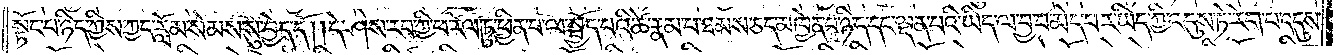སྟོང་པ་ཉིད་ཀྱིས་ཀྱང་རློམ་སེམས་སུ་བྱེད་དོ། །དེ་ཤེས་རབ་ཀྱི་ཕ་རོལ་ཏུ་ཕྱིན་པ་ལ་སྤྱོད་པའི་ཚེ་རྣམ་པ་ཐམས་ཅད་མཁྱེན་པ་ཉིད་དང་ལྡན་པའི་ཡིད་ལ་བྱ་བ་མེད་པར་ཡིད་ཀྱི་འདུས་ཏེ་རེག་པ་འདུས་
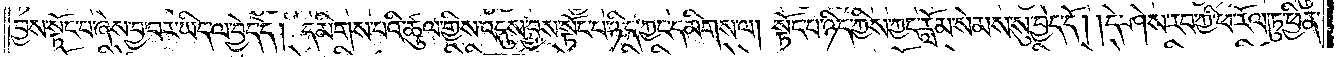བྱས་སྟོང་པ་ཞེས་བྱ་བར་ཡིད་ལ་བྱེད་དེ། དམིགས་པའི་ཚུལ་གྱིས་འདུས་བྱས་སྟོང་པ་ཉིད་ཀྱང་དམིགས་ལ། སྟོང་པ་ཉིད་ཀྱིས་ཀྱང་རློམ་སེམས་སུ་བྱེད་དོ། །དེ་ཤེས་རབ་ཀྱི་ཕ་རོལ་ཏུ་ཕྱིན་
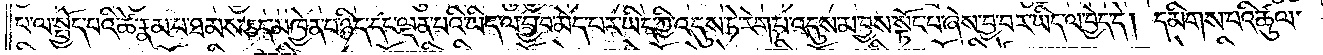པ་ལ་སྤྱོད་པའི་ཚེ་རྣམ་པ་ཐམས་ཅད་མཁྱེན་པ་ཉིད་དང་ལྡན་པའི་ཡིད་ལ་བྱ་བ་མེད་པར་ཡིད་ཀྱི་འདུས་ཏེ་རེག་པ་འདུས་མ་བྱས་སྟོང་པ་ཞེས་བྱ་བར་ཡིད་ལ་བྱེད་དེ། དམིགས་པའི་ཚུལ་
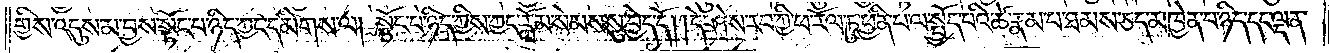གྱིས་འདུས་མ་བྱས་སྟོང་པ་ཉིད་ཀྱང་དམིགས་ལ། སྟོང་པ་ཉིད་ཀྱིས་ཀྱང་རློམ་སེམས་སུ་བྱེད་དོ། །དེ་ཤེས་རབ་ཀྱི་ཕ་རོལ་ཏུ་ཕྱིན་པ་ལ་སྤྱོད་པའི་ཚེ་རྣམ་པ་ཐམས་ཅད་མཁྱེན་པ་ཉིད་དང་ལྡན་
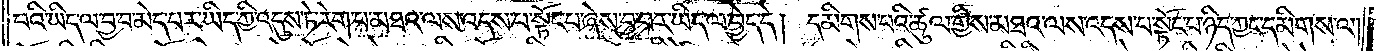པའི་ཡིད་ལ་བྱ་བ་མེད་པར་ཡིད་ཀྱི་འདུས་ཏེ་རེག་པ་མཐའ་ལས་འདས་པ་སྟོང་པ་ཞེས་བྱ་བར་ཡིད་ལ་བྱེད་དེ། དམིགས་པའི་ཚུལ་གྱིས་མཐའ་ལས་འདས་པ་སྟོང་པ་ཉིད་ཀྱང་དམིགས་ལ།
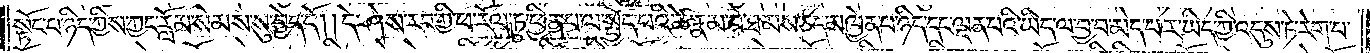སྟོང་པ་ཉིད་ཀྱིས་ཀྱང་རློམ་སེམས་སུ་བྱེད་དོ། །དེ་ཤེས་རབ་ཀྱི་ཕ་རོལ་ཏུ་ཕྱིན་པ་ལ་སྤྱོད་པའི་ཚེ་རྣམ་པ་ཐམས་ཅད་མཁྱེན་པ་ཉིད་དང་ལྡན་པའི་ཡིད་ལ་བྱ་བ་མེད་པར་ཡིད་ཀྱི་འདུས་ཏེ་རེག་པ་
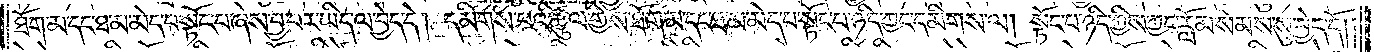ཐོག་མ་དང་ཐ་མ་མེད་པ་སྟོང་པ་ཞེས་བྱ་བར་ཡིད་ལ་བྱེད་དེ། དམིགས་པའི་ཚུལ་གྱིས་ཐོག་མ་དང་ཐ་མ་མེད་པ་སྟོང་པ་ཉིད་ཀྱང་དམིགས་ལ། སྟོང་པ་ཉིད་ཀྱིས་ཀྱང་རློམ་སེམས་སུ་བྱེད་དོ། །
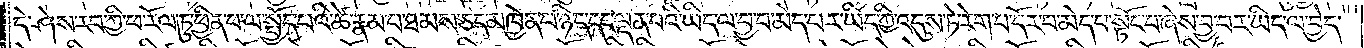དེ་ཤེས་རབ་ཀྱི་ཕ་རོལ་ཏུ་ཕྱིན་པ་ལ་སྤྱོད་པའི་ཚེ་རྣམ་པ་ཐམས་ཅད་མཁྱེན་པ་ཉིད་དང་ལྡན་པའི་ཡིད་ལ་བྱ་བ་མེད་པར་ཡིད་ཀྱི་འདུས་ཏེ་རེག་པ་དོར་བ་མེད་པ་སྟོང་པ་ཞེས་བྱ་བར་ཡིད་ལ་བྱེད་
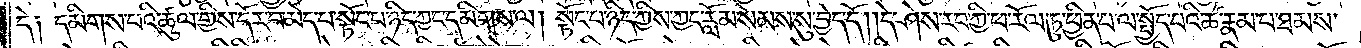དེ༑ དམིགས་པའི་ཚུལ་གྱིས་དོར་བ་མེད་པ་སྟོང་པ་ཉིད་ཀྱང་དམིགས་ལ། སྟོང་པ་ཉིད་ཀྱིས་ཀྱང་རློམ་སེམས་སུ་བྱེད་དོ། །དེ་ཤེས་རབ་ཀྱི་ཕ་རོལ་ཏུ་ཕྱིན་པ་ལ་སྤྱོད་པའི་ཚེ་རྣམ་པ་ཐམས་
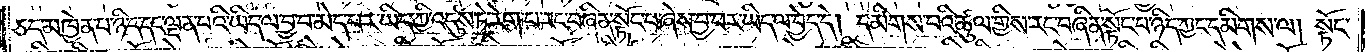ཅད་མཁྱེན་པ་ཉིད་དང་ལྡན་པའི་ཡིད་ལ་བྱ་བ་མེད་པར་ཡིད་ཀྱི་འདུས་ཏེ་རེག་པ་རང་བཞིན་སྟོང་པ་ཞེས་བྱ་བར་ཡིད་ལ་བྱེད་དེ། དམིགས་པའི་ཚུལ་གྱིས་རང་བཞིན་སྟོང་པ་ཉིད་ཀྱང་དམིགས་ལ། སྟོང་
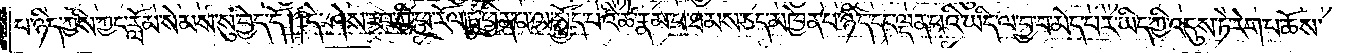པ་ཉིད་ཀྱིས་ཀྱང་རློམ་སེམས་སུ་བྱེད་དོ། །དེ་ཤེས་རབ་ཀྱི་ཕ་རོལ་ཏུ་ཕྱིན་པ་ལ་སྤྱོད་པའི་ཚེ་རྣམ་པ་ཐམས་ཅད་མཁྱེན་པ་ཉིད་དང་ལྡན་པའི་ཡིད་ལ་བྱ་བ་མེད་པར་ཡིད་ཀྱི་འདུས་ཏེ་རེག་པ་ཆོས་
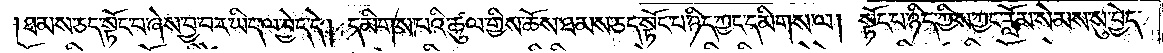ཐམས་ཅད་སྟོང་པ་ཞེས་བྱ་བར་ཡིད་ལ་བྱེད་དེ། དམིགས་པའི་ཚུལ་གྱིས་ཆོས་ཐམས་ཅད་སྟོང་པ་ཉིད་ཀྱང་དམིགས་ལ། སྟོང་པ་ཉིད་ཀྱིས་ཀྱང་རློམ་སེམས་སུ་བྱེད་
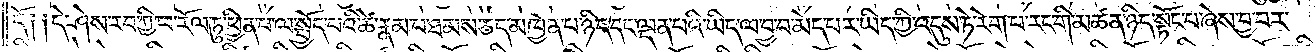དོ༑ ༑དེ་ཤེས་རབ་ཀྱི་ཕ་རོལ་ཏུ་ཕྱིན་པ་ལ་སྤྱོད་པའི་ཚེ་རྣམ་པ་ཐམས་ཅད་མཁྱེན་པ་ཉིད་དང་ལྡན་པའི་ཡིད་ལ་བྱ་བ་མེད་པར་ཡིད་ཀྱི་འདུས་ཏེ་རེག་པ་རང་གི་མཚན་ཉིད་སྟོང་པ་ཞེས་བྱ་བར་
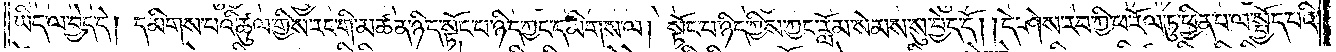ཡིད་ལ་བྱེད་དེ། དམིགས་པའི་ཚུལ་གྱིས་རང་གི་མཚན་ཉིད་སྟོང་པ་ཉིད་ཀྱང་དམིགས་ལ། སྟོང་པ་ཉིད་ཀྱིས་ཀྱང་རློམ་སེམས་སུ་བྱེད་དོ། །དེ་ཤེས་རབ་ཀྱི་ཕ་རོལ་ཏུ་ཕྱིན་པ་ལ་སྤྱོད་པའི་
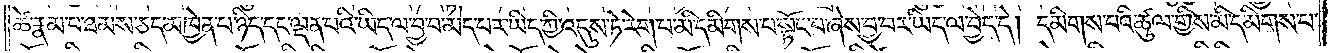ཚེ་རྣམ་པ་ཐམས་ཅད་མཁྱེན་པ་ཉིད་དང་ལྡན་པའི་ཡིད་ལ་བྱ་བ་མེད་པར་ཡིད་ཀྱི་འདུས་ཏེ་རེག་པ་མི་དམིགས་པ་སྟོང་པ་ཞེས་བྱ་བར་ཡིད་ལ་བྱེད་དེ། དམིགས་པའི་ཚུལ་གྱིས་མི་དམིགས་པ་
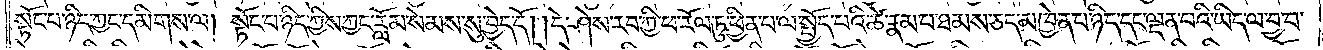སྟོང་པ་ཉིད་ཀྱང་དམིགས་ལ། སྟོང་པ་ཉིད་ཀྱིས་ཀྱང་རློམ་སེམས་སུ་བྱེད་དོ། །དེ་ཤེས་རབ་ཀྱི་ཕ་རོལ་ཏུ་ཕྱིན་པ་ལ་སྤྱོད་པའི་ཚེ་རྣམ་པ་ཐམས་ཅད་མཁྱེན་པ་ཉིད་དང་ལྡན་པའི་ཡིད་ལ་བྱ་བ་
